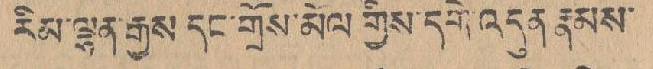རིམ་ལྷན རྒྱས དང་གྲོས་མོལ གྱིས་དགེ་འདུན རྣམས་
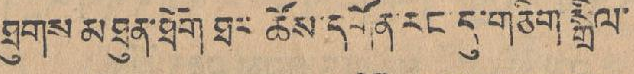ཐུགས མཐུན་ཐོག་ཐར་ཆོས་དགོན་རང་དུ་གཅིག་སྒྲིལ་
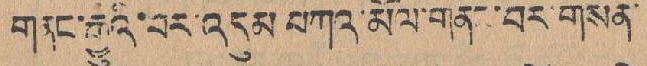གནང་རྒྱུའི་བར་འདུམ བཀའ་མོལ་གནང་བར་གསན་
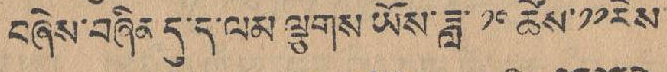བཞེས་བཞིན དུ་ད་ལམ་ལྕགས ཡོས་ཟླ་ ༡༠ ཚེས་ ༡༡ རེས་
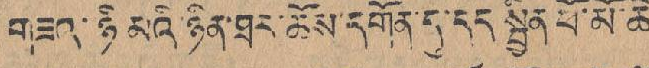གཟའ་ཉི མའི་ཉིན་ཐར་ཆོས་དགོན་དུ་དད སྤྱིན་ཕོ་མོ་ཆེ
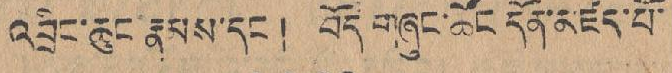འབྲིང་ཆུང རྣམས་དང ། བོད གཞུང་ཚོང དོན་མཛད་པོ་
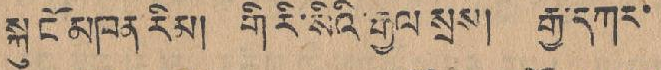སྐུ ངོ་ མཁན་རིམ། གི རི་ སིའི་རྒྱལ་སྲས། རྒྱ་དཀར་
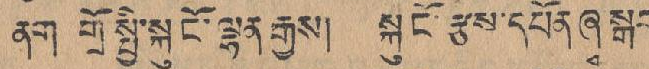ནག གྲོ་སྤྱི་སྐུ ངོ་ལྷན་རྒྱས། སྐུ ངོ་རྩས་དཔོན ཞྭ སྒབ་
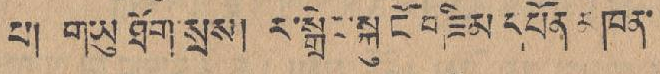པ། གཡུ་ཐོག་སྲས། ར་སྒྲེང་སྐུ ངོ གཟིམ་དཔོན་མཁན།
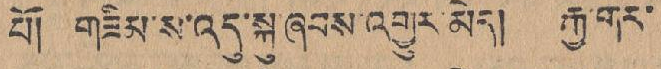པོ། གཟིམ་ས་འདུ་སྐུ་ཞབས་འགྱུར་མེད། རྒྱ་གར་
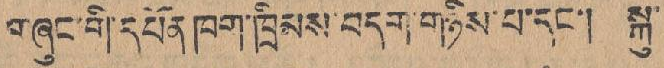གཞུང་གི་དཔོན་ཁག་ཁྲོམས་བདག་གཉིས་པ་དང་། སྐུ་
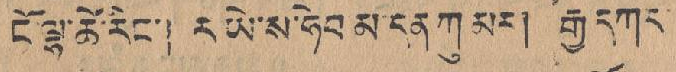ངོ ལྷ་ཚེ་རིང་། ར ཡེ་ས་ཧེབ མ་དན ཀུ མར། རྒྱ་དཀང་
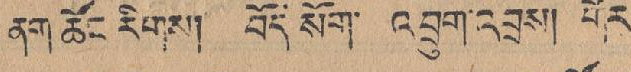ནག ཚོང་རིགས། བོད སོག་ འབྲུག་འབྲས། གོར་
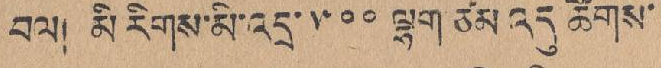བལ། མི་རིགས་མི་འདྲ་ ༥༠༠ ལྷག་ཙམ་འདུ ཚོགས་
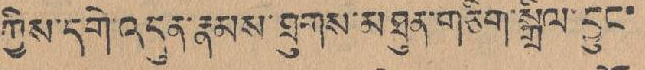ཀྱིས་དགེ་འདུན་རྣམས་ཐུགས་མཐུན་གཅིག་སྒྲིལ་བྱུང་
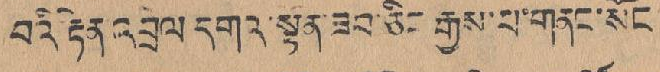བའི་རྟེན་འབྲེལ དགའ་སྟོན་ཟབ་ཅིང རྒྱས་པ་གནང་སོང
